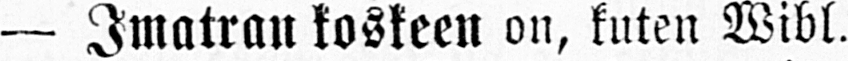— Imatran koskeen on, kuten Wibl.
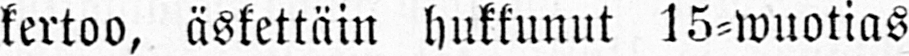kertoo, äskettäin hukkunut 15-wuotias
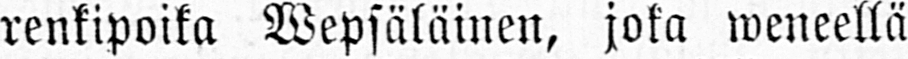renkipoika Wepsäläinen, joka weneellä
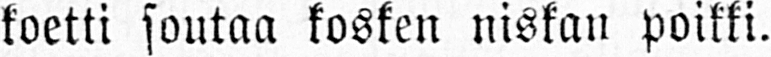koetti soutaa kosken niskan poikki.
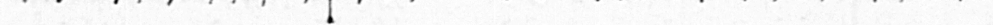Paradisin Pakolainen.
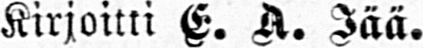Kirjoitti E. A. Jää.
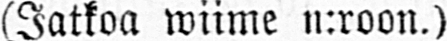(Jatkoa wiime n:roon.)
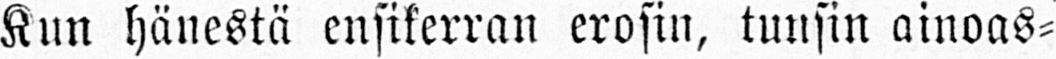Kun hänestä ensikerran erosin, tunsin ainoas-
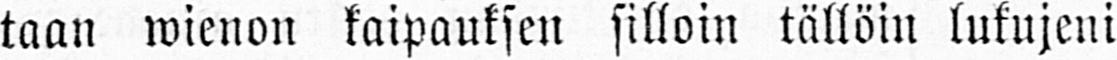taan wienon kaipauksen silloin tällöin lukujeni
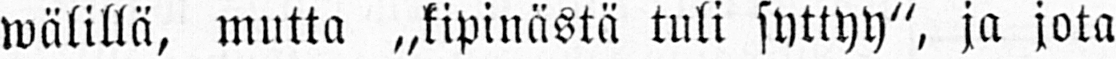wälillä, mutta „kipinästä tuli syttyy", ja jota
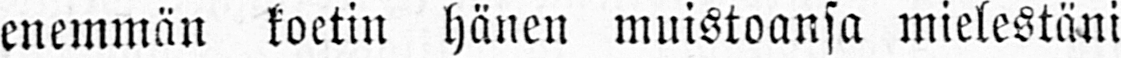enemmän koetin hänen muistoansa mielestäni
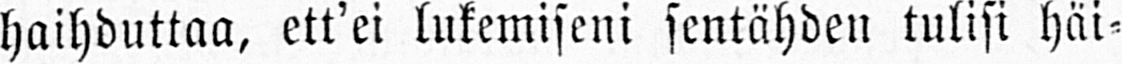haihduttaa, ett'ei lukemiseni sentähden tulisi häi-
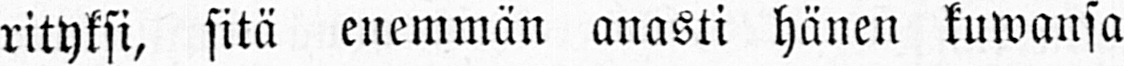rityksi, sitä enemmän anasti hänen kuwansa
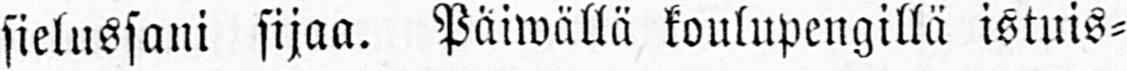sielussani sijaa. Päiwällä koulupengillä istuis-
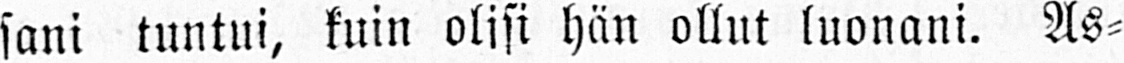sani tuntui, kuin olisi hän ollut luonani. As-
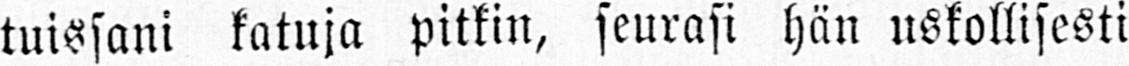tuissani katuja pitkin, seurasi hän uskollisesti
